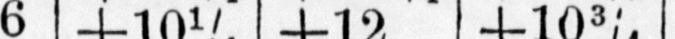6 +10¼ +12 +10¾
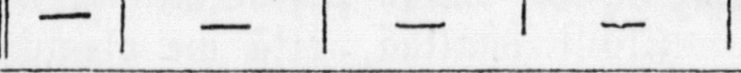— — — —
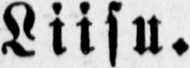Liisu.
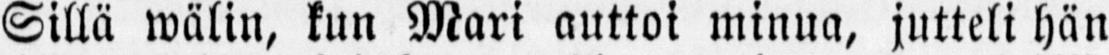Sillä wälin, kun Mari auttoi minua, jutteli hän
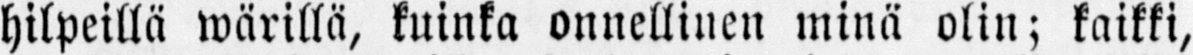hilpeillä wärillä, kuinka onnellinen minä olin; kaikki,
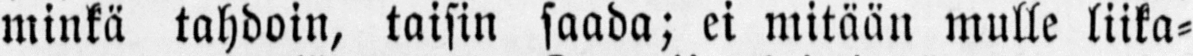minkä tahdoin, taisin saada; ei mitään mulle liika-
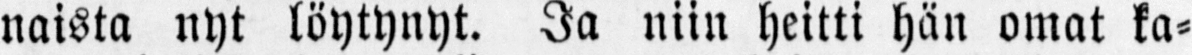naista nyt löytynyt. Ja niin heitti hän owat ka-
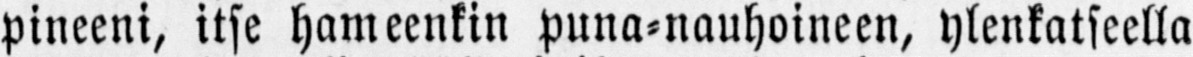pineeni, itse hameenkin puna-nauhoineen, ylenkatseella
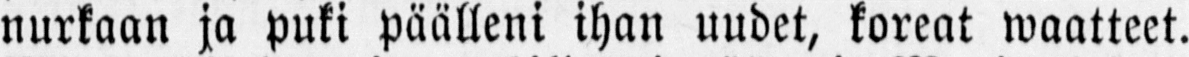nurkaan ja puki päälleni ihan uudet, koreat waatteet.
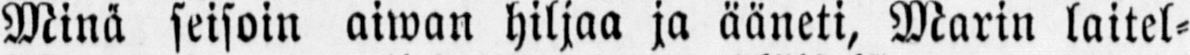Minä seisoin aiwan hiljaa ja ääneti, Marin laitel-
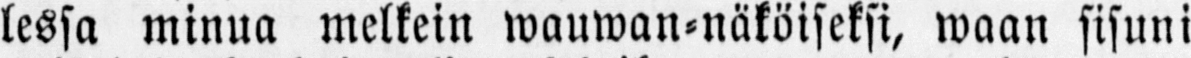lessa minua melkein wauwan-näköiseksi, waan sisuni
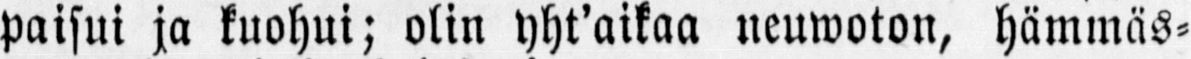paisui ja kuohui; olin yht’aikaa neuwoton, hämmäs-
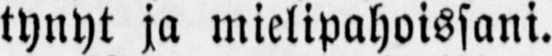tynyt ja mielipahoissani.
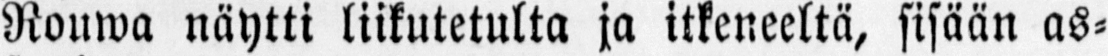Rouwa näytti liikutetulta ja itkeneeltä, sisään as-
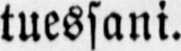tuessani.
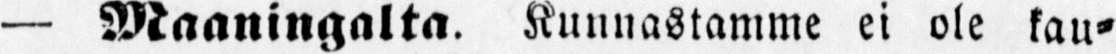— Maaningalta. Kunnastamme ei ole kau-
